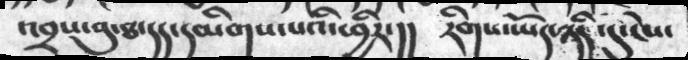འབྲས་བུ་ཐ་དད་དམིགས་པའི་ཕྱིར་།།  རིགས་ཡོད་ཉིད་དུ་ངེས་
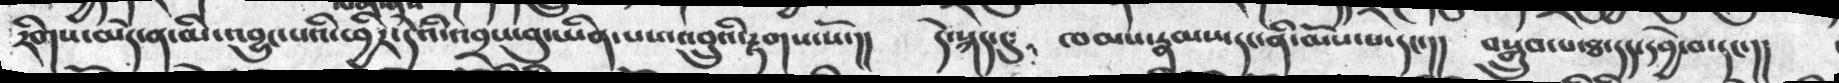རིགས་མེད་ན་མི་འབྱུང་པའི་ཕྱིར་དེའི་འབྲས་བུ་ཡིན་པས་འབྲུའི་རྟགས་སོ་།།     དེ་སྐད་དུ་   ཁམས་རྣམས་དང་ནི་མོས་པ་དང་།།    བསྒྲུབ་པ་ཐ་དད་དབྱེ་བ་དང་།།
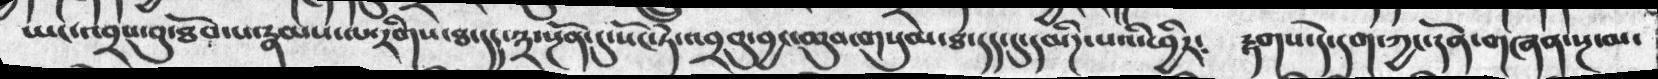ཡང་འབྲས་བུ་ཐོབ་པ་རྣམས་ལ་རིགས་ཐ་དད་༣་སྔོན་དུ་སོང་ཏེ་འབྲབུ་བྱང་ཆུབ་གསུམ་ཐ་དད་དུ་དམིཌ་པའི་ཕྱིར༴  རྟགས་དེ་དག་ཀྱང་དོན་གཞན་སྔ་མ་
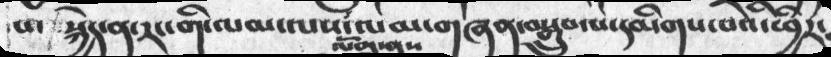པ་ སྐྱེད་ན་རང་གི་ལམ་ལས་ལོག་ནས་ལམ་གཞན་བསྒྲུབ་པ་དམིགས་པའི་ཕྱིར༴
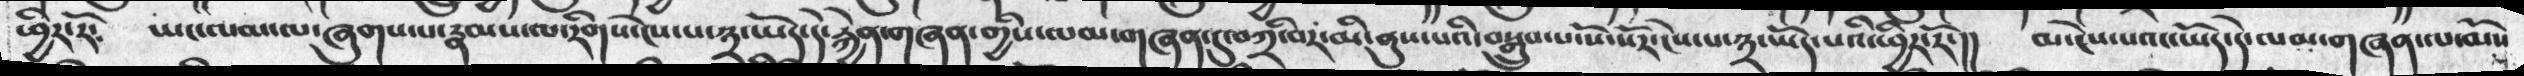ཕྱིར་རོ༴  ཡང་ལམ་ལ་ཞུགས་པ་རྣམས་ལ་རིགས་ངེས་པ་༣་ཡོད་དེ་རྐྱེན་གཞན་གྱིས་ལམ་གཞན་དུ་བཀྲི་བར་མི་ནུས་པའི་བསྒྲུབ་པ་སོ་སོར་ངེས་པ་༣་ཡོད་པའི་ཕྱིར་རོ་།།  མ་ངེས་པའང་ཡོད་དེ་ལམ་གཞན་ལ་མོས
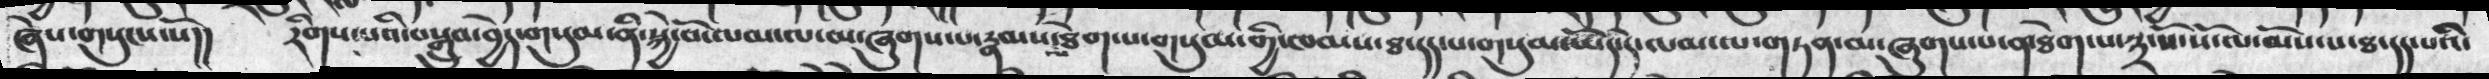ཞེས་གསུངས་སོ།།   རིགས་པའི་བསྒྲུབ་བྱེད་གསུམ་ནི་སྐྱེ་བོ་ལམ་ལ་མ་ཞུགས་པ་རྣམས་ལ་ཐེག་པ་གསུམ་གསུམ་གྱི་ཁམས་ཐ་དད་པ་གསུམ་ཡོད་དེ་ལམ་ལ་གཏན་མ་ཞུགས་པ་ན་ཐེག་པ་༣་སོ་སོ་ལ་མོས་པ་ཐ་དད་པའི་
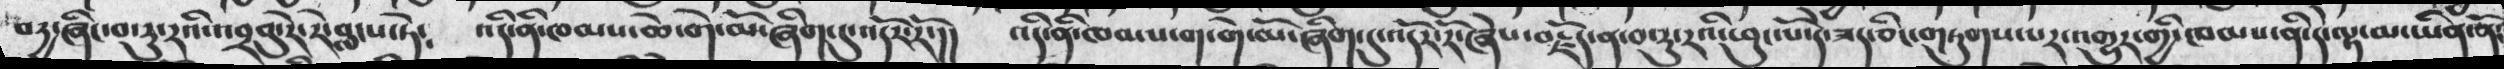བརྱ་ཞིང་བ་རུ་རའི་འབྲབུ་རེ་རེ་བླངས་ཏེ༴  འདི་ནི་ཁམས་ཆེ་གེ་མོ་ཞིག་དུ་འདོར་རོ་།།  འདི་ནི་ཁམས་ག་གེ་མོ་ཞིག་དུ་འདོར་རོ་ཞེས་བརྗོད་ན་བ་རུ་རའི་ཕུང་པོ་དེ་ཟད་ཅིང་གཏུགས་པར་འགྱུར་གྱི་ཁམས་ནི་དེ་ལྟ་མ་ཡིན་ནོ།
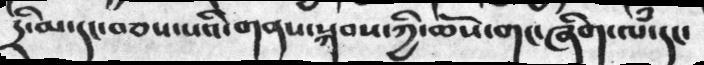དྲི་མ་དང་བཅས་པའི་གནས་སྐབས་ཀྱི་ཆོས་གང་ཞིག་ལཾ་དང་
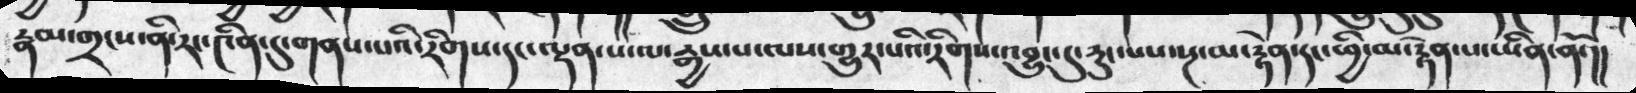རྣམ་གྲངས་ནི་རང་༤ིན་དུ་གནས་པའི་རིགས་དང་ལྡན་པ་ལ་རྒྱས་པ་ལས་གྱུར་པའི་རིགས་འབྱུང་དུ་རུང་པས་སྔ་མ་རྟེན་དང་ཕྱི་མ་རྟེན་པ་ཡིན་ནོ་།།
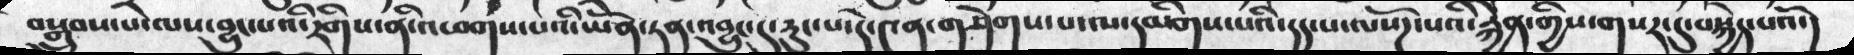བསྒྲུབས་པ་ལས་བྱུང་པའི་རིགིས་ནི་འཕགས་པའི་ཡོན་ཏན་འབྱུང་དུ་རུང་པ་དེ་༤ན་གཤེགས་པ་ལ་དམིགས་པའི་དད་པ་ལསོཌ་པའི་རྐྱེན་གྱིས་གསར་དུ་བསྐྱེད་པའོ་།
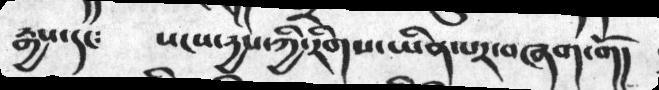རྒྱས་དང༴  སངས་དྱས་ཀྱི་རིགས་ཡིན་པར་བཞག་གོ།
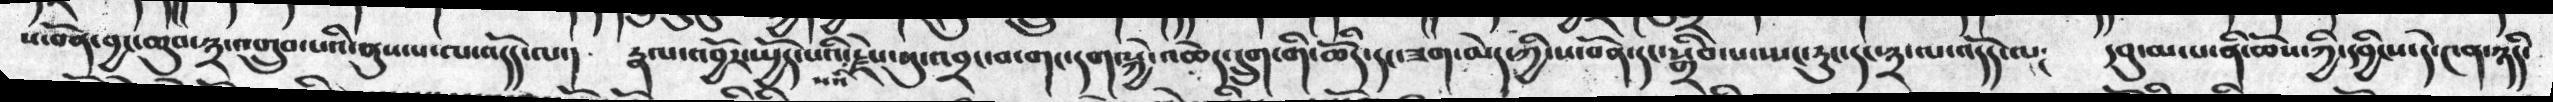ས་བོན་བྱང་ཆུབ་༣་འགྲུབ་པའི་ནུས་པ་ལ་འདོད་ལ་། རྣལ་འབྱོར་སྤྱོད་པའི་སའི་རྗེས་སུ་འབྲང་བ་གང་དག་སྐྱེ་འཆེད་དྲུག་གི་ཆོདི་དང་ཟག་མེད་ཀྱི་ས་བོན་དང་སྒྲིབ་པ་ཡང་ཏུང་དང་༣་ལ་འདོད་ལ༴  དབུ་མ་པ་ནི་ཆོས་ཀྱི་དབྱིངས་དེ་༤ན་ཉིད་
